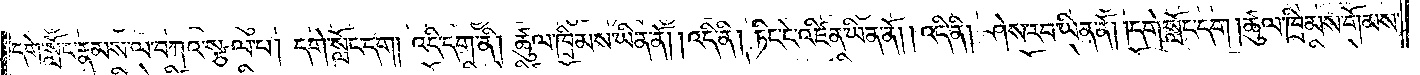དགེ་སློང་རྣམས་ལ་བཀའ་སྩལ་པ། དགེ་སློང་དག། འདི་དག་ནི། ཚུལ་ཁྲིམས་ཡིན་ནོ། །འདི་ནི། ཏིང་ངེ་འཛིན་ཡིན་ནོ། །འདི་ནི། ཤེས་རབ་ཡིན་ནོ། །དགེ་སློང་དག། ཚུལ་ཁྲིམས་གོམས་
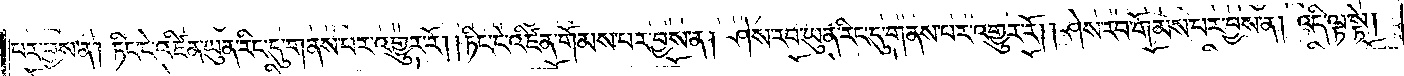པར་བྱས་ན། ཏིང་ངེ་འཛིན་ཡུན་རིང་དུ་གནས་པར་འགྱུར་རོ། །ཏིང་ངེ་འཛིན་གོམས་པར་བྱས་ན། ཤེས་རབ་ཡུན་རིང་དུ་གནས་པར་འགྱུར་རོ། །ཤེས་རབ་གོམས་པར་བྱས་ན། འདི་ལྟ་སྟེ།
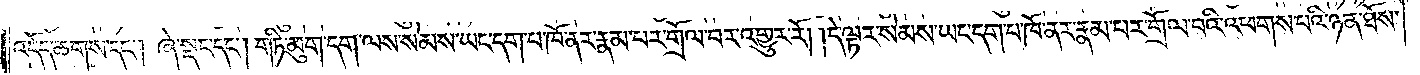འདོད་ཆགས་དང༌། ཞེ་སྡང་དང༌། གཏི་མུག་དག་ལས་སེམས་ཡང་དག་པ་ཁོ་ནར་རྣམ་པར་གྲོལ་བར་འགྱུར་རོ། །དེ་ལྟར་སེམས་ཡང་དག་པ་ཁོ་ནར་རྣམ་པར་གྲོལ་བའི་འཕགས་པའི་ཉན་ཐོས་
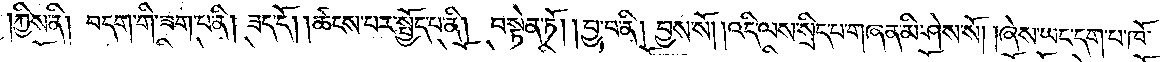ཀྱིས་ནི། བདག་གི་ཟག་པ་ནི། ཟད་དོ། །ཚངས་པར་སྤྱོད་པ་ནི། བསྟེན་ཏོ། །བྱ་བ་ནི། བྱས་སོ། །འདི་ལས་སྲིད་པ་གཞན་མི་ཤེས་སོ། །ཞེས་ཡང་དག་པ་ཁོ་
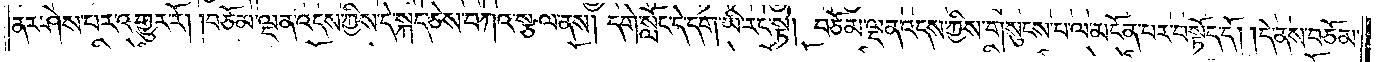ནར་ཤེས་པར་འགྱུར་རོ། །བཅོམ་ལྡན་འདས་ཀྱིས་དེ་སྐད་ཅེས་བཀའ་སྩལ་ནས། དགེ་སློང་དེ་དག་ཡི་རང་སྟེ། བཅོམ་ལྡན་འདས་ཀྱིས་གསུངས་པ་ལ་མངོན་པར་བསྟོད་དོ། །དེ་ནས་བཅོམ་
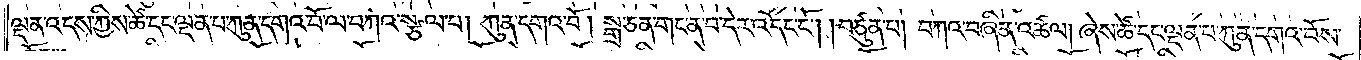ལྡན་འདས་ཀྱིས་ཚེ་དང་ལྡན་པ་ཀུན་དགའ་བོ་ལ་བཀའ་སྩལ་པ། ཀུན་དགའ་བོ། སྒྲ་ཅན་གང་ན་བ་དེར་འདོད་ངོ༌། །བཙུན་པ། བཀའ་བཞིན་འཚལ། ཞེས་ཚེ་དང་ལྡན་པ་ཀུན་དགའ་བོས་
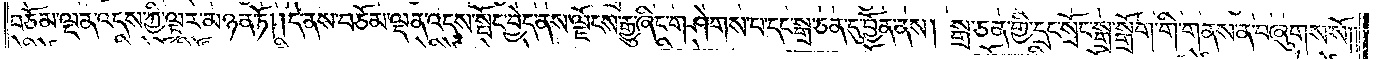བཅོམ་ལྡན་འདས་ཀྱི་ལྟར་མཉན་ཏོ། །དེ་ནས་བཅོམ་ལྡན་འདས་སྤོང་བྱེད་ནས་ལྗོངས་རྒྱུ་ཞིང་གཤེགས་པ་དང་སྒྲ་ཅན་དུ་བྱོན་ནས། སྒྲ་ཅན་གྱི་དྲང་སྲོང་སྒྲ་སྒྲོག་གི་གནས་ན་བཞུགས་སོ༎
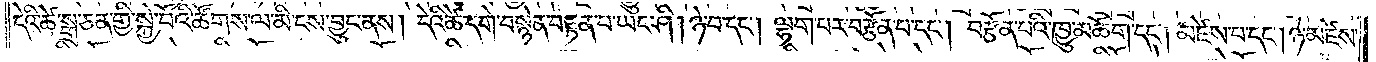དེའི་ཚེ་སྒྲ་ཅན་གྱི་སྐྱེ་བོའི་ཚོགས་ལ་མི་ངས་བྱུང་ནས། དེའི་ཚེ་དགེ་བསྙེན་བརྟན་པ་ཡང་ཤི། ཉེ་བ་དང༌། ལྷག་པར་བརྩོན་པ་དང༌། བརྩོན་པའི་ཁྱུ་མཆོག་དང༌། མཛེས་པ་དང༌། ཉེ་མཛེས་
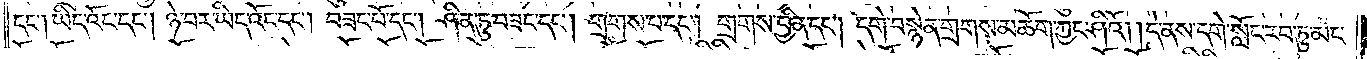དང༌། ཡིད་འོང་དང༌། ཉེ་བར་ཡིད་འོང་དང༌། བཟང་པོ་དང༌། ཤིན་ཏུ་བཟང་དང༌། གྲགས་པ་དང༌། གྲགས་བྱིན་དང༌། དགེ་བསྙེན་གྲགས་མཆོག་ཀྱང་ཤིའོ། །དེ་ནས་དགེ་སློང་རབ་ཏུ་མང་
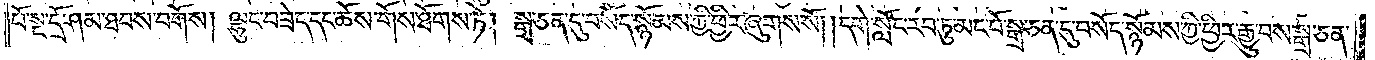པོ་སྔ་དྲོ་ཤམ་ཐབས་བགོས། ལྷུང་བཟེད་དང་ཆོས་གོས་ཐོགས་ཏེ། སྒྲ་ཅན་དུ་བསོད་སྙོམས་ཀྱི་ཕྱིར་ཞུགས་སོ། །དགེ་སློང་རབ་ཏུ་མང་པོ་སྒྲ་ཅན་དུ་བསོད་སྙོམས་ཀྱི་ཕྱིར་རྒྱུ་བས་སྒྲ་ཅན་
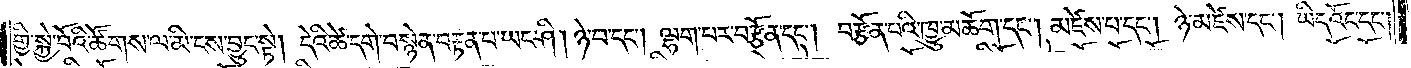གྱི་སྐྱེ་བོའི་ཚོགས་ལ་མི་ངས་བྱུང་སྟེ། དེའི་ཚེ་དགེ་བསྙེན་བརྟན་པ་ཡང་ཤི། ཉེ་བ་དང༌། ལྷག་པར་བརྩོན་དང༌། བརྩོན་པའི་ཁྱུ་མཆོག་དང༌། མཛེས་པ་དང༌། ཉེ་མཛེས་དང༌། ཡིད་འོང་དང་
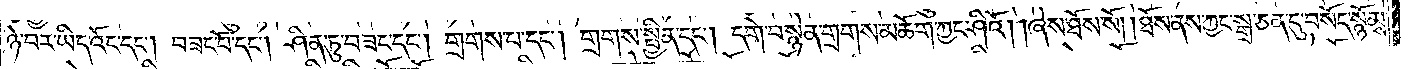ཉེ་བར་ཡིད་འོང་དང༌། བཟང་པོ་དང༌། ཤིན་ཏུ་བཟང་དང༌། གྲགས་པ་དང༌། གྲགས་སྦྱིན་དང༌། དགེ་བསྙེན་གྲགས་མཆོག་ཀྱང་ཤིའོ། །ཞེས་ཐོས་སོ། །ཐོས་ནས་ཀྱང་སྒྲ་ཅན་དུ་བསོད་སྙོམས་
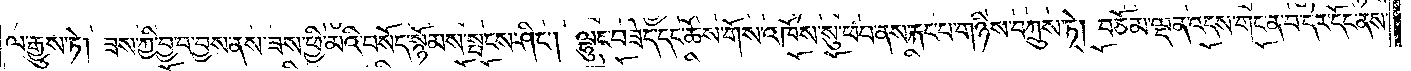ལ་རྒྱུས་ཏེ། ཟས་ཀྱི་བྱ་བ་བྱས་ནས་ཟས་ཕྱི་མའི་བསོད་སྙོམས་སྤངས་ཤིང༌། ལྷུང་བཟེད་དང་ཆོས་གོས་འཁོས་སུ་ཕབ་ནས་རྐང་པ་གཉིས་བཀྲུས་ཏེ། བཅོམ་ལྡན་འདས་གང་ན་བ་དེར་དོང་ནས་
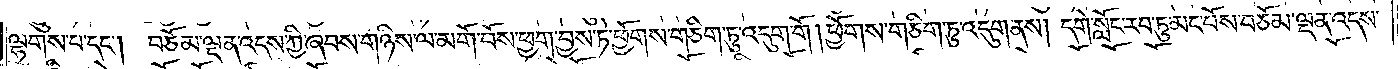ལྷགས་པ་དང༌། བཅོམ་ལྡན་འདས་ཀྱི་ཞབས་གཉིས་ལ་མགོ་བོས་ཕྱག་བྱས་ཏེ་ཕྱོགས་གཅིག་ཏུ་འདུག་གོ །ཕྱོགས་གཅིག་ཏུ་འདུག་ནས། དགེ་སློང་རབ་ཏུ་མང་པོས་བཅོམ་ལྡན་འདས་
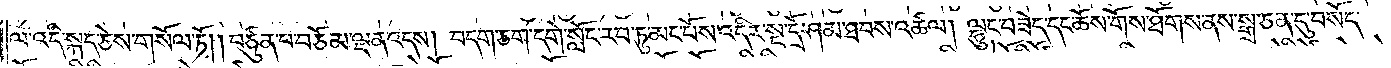ལ་འདི་སྐད་ཅེས་གསོལ་ཏོ། །བཙུན་པ་བཅོམ་ལྡན་འདས། བདག་ཅག་དགེ་སློང་རབ་ཏུ་མང་པོས་འདིར་སྔ་དྲོ་ཤམ་ཐབས་འཚལ། ལྷུང་བཟེད་དང་ཆོས་གོས་ཐོགས་ནས་སྒྲ་ཅན་དུ་བསོད་
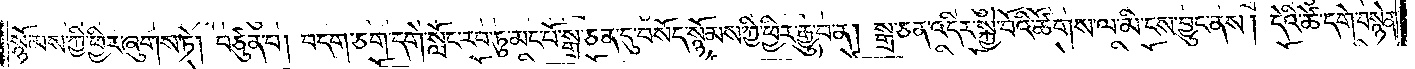སྙོམས་ཀྱི་ཕྱིར་ཞུགས་ཏེ། བཙུན་པ། བདག་ཅག་དགེ་སློང་རབ་ཏུ་མང་པོ་སྒྲ་ཅན་དུ་བསོད་སྙོམས་ཀྱི་ཕྱིར་རྒྱུ་བ་ན། སྒྲ་ཅན་འདིར་སྐྱེ་བོའི་ཚོགས་ལ་མི་ངས་བྱུང་ནས། དེའི་ཚེ་དགེ་བསྙེན་
